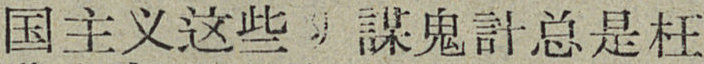国主义这些阴謀鬼計总是枉
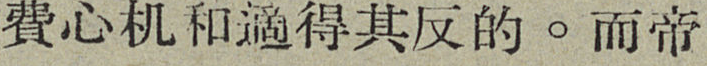费心机和適得其反的。而帝
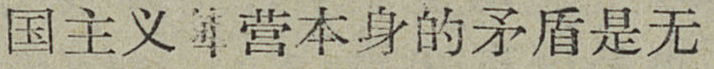国主义陣营本身的矛盾是无
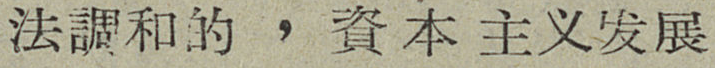法調和的，資本主义发展
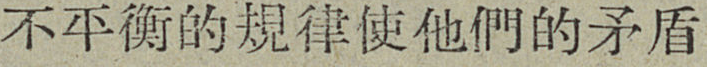不平和的規律使他們的矛盾
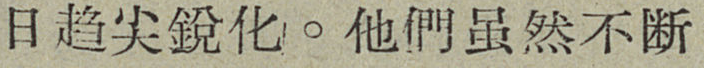日趋尖銳化。他們虽然不断
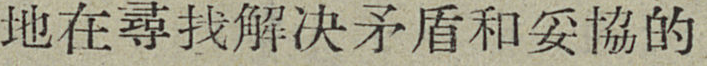地在尋找解决矛盾和妥協的
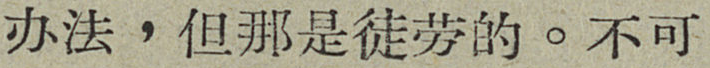办法，但那是徒劳地。不可
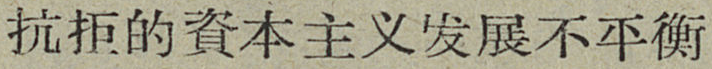抗拒的資本主义发展不平衡
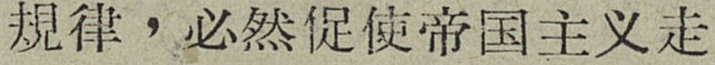規律，必然促使帝国主义走
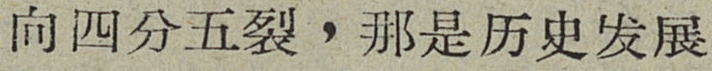向四分五裂，那是历史发展
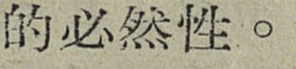的必然性。
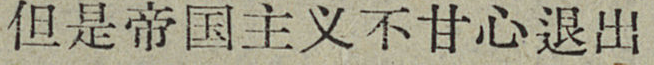但是帝国主义不甘心退出
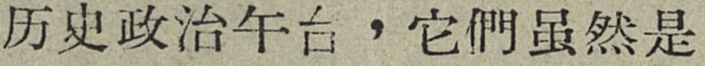历史政治午台，它們虽然是
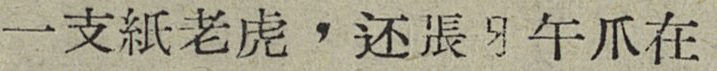一支紙老虎，还張牙午爪在
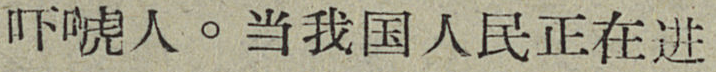吓唬人。当我国人民正在进
